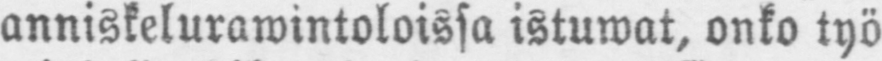anniskelurawintoloissa istuwat, onko työ
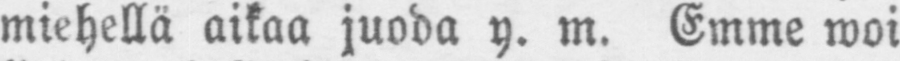miehellä aikaa juoda y. m. Emme woi
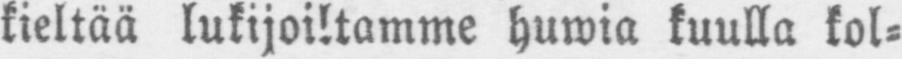kieltää lukijoiltamme huwia kuulla kol-
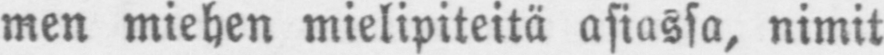men miehen mielipiteitä asiassa, nimit-
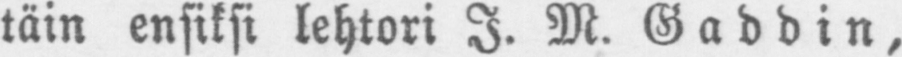täin ensiksi lehtori I. M. Gaddin,
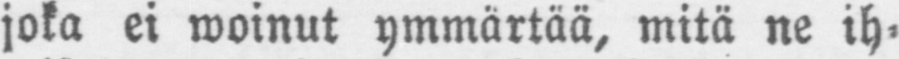joka ei woinut ymmärtää, mitä ne ih-
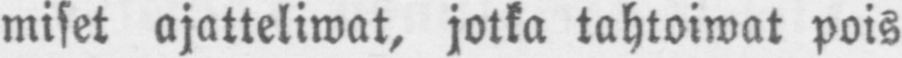miset ajatteliwat, jotka tahtoiwat pois
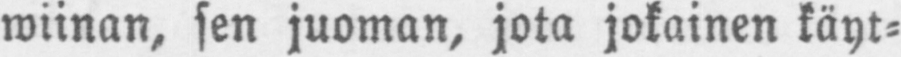wiinan, sen juoman, jota jokainen käyt-
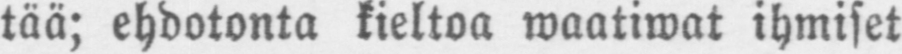tää; ehdotonta kieltoa waatiwat ihmiset
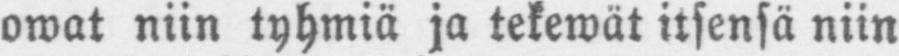owat niin tyhmiä ja tekewät itsensä niin
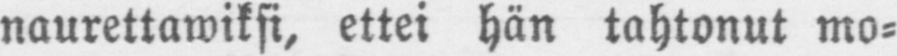naurettawiksi, ettei hän tahtonut mo-
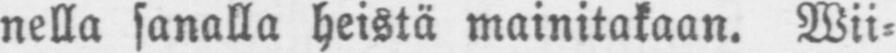nella sanalla heistä mainitakaan. Wii-
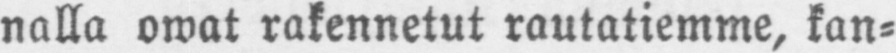nalla owat rakennetut rautatiemme, kan-
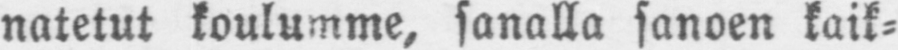natetut koulumme, sanalla sanoen kaik-
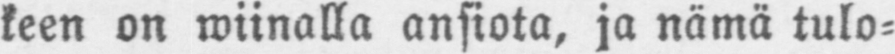keen on wiinalla ansiota, ja nämä tulo-
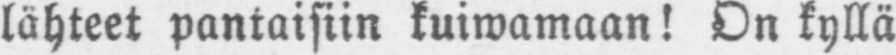lähteet pantaisiin kuiwamaan! On kyllä
